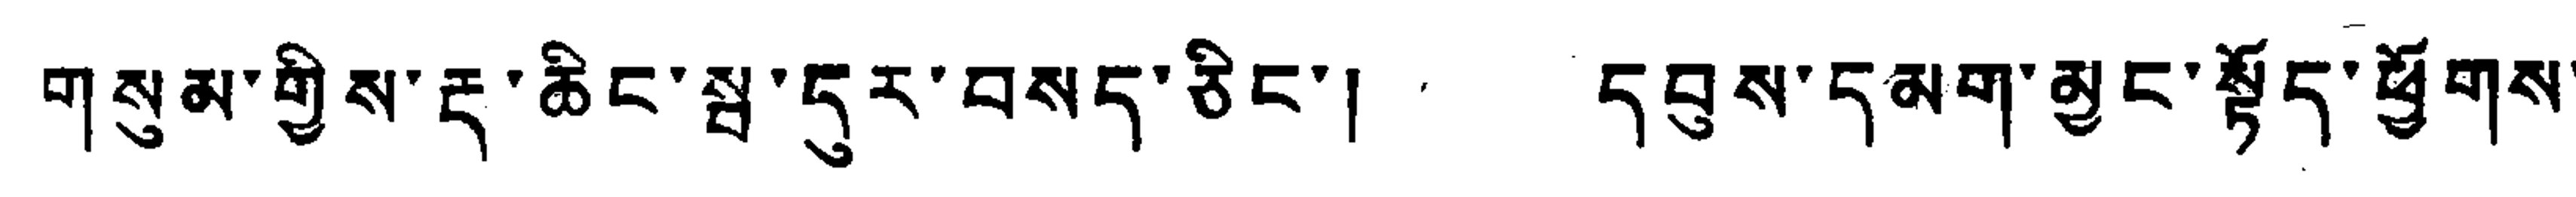གསུམ་གྱིས་རྡ་ཆིང་སྦ་དུར་བསད་ཅིང་། དབུས་དམག་མྱང་སྟོད་ཕྱོགས་
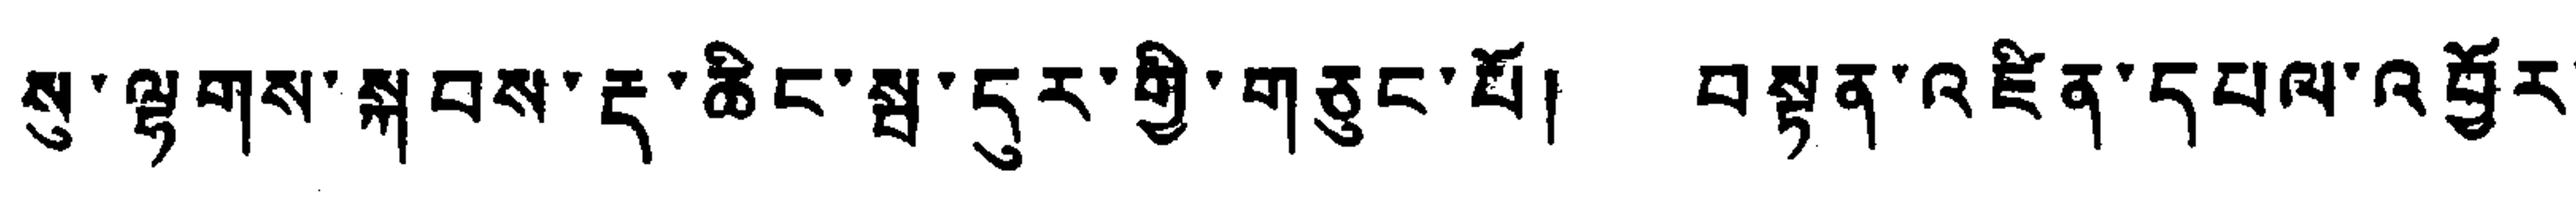སུ་ལྷགས་སྐབས་རྡ་ཆིང་སྦ་དུར་གྱི་གཅུང་པོ། བསྟན་འཛིན་དཔལ་འབྱོར་
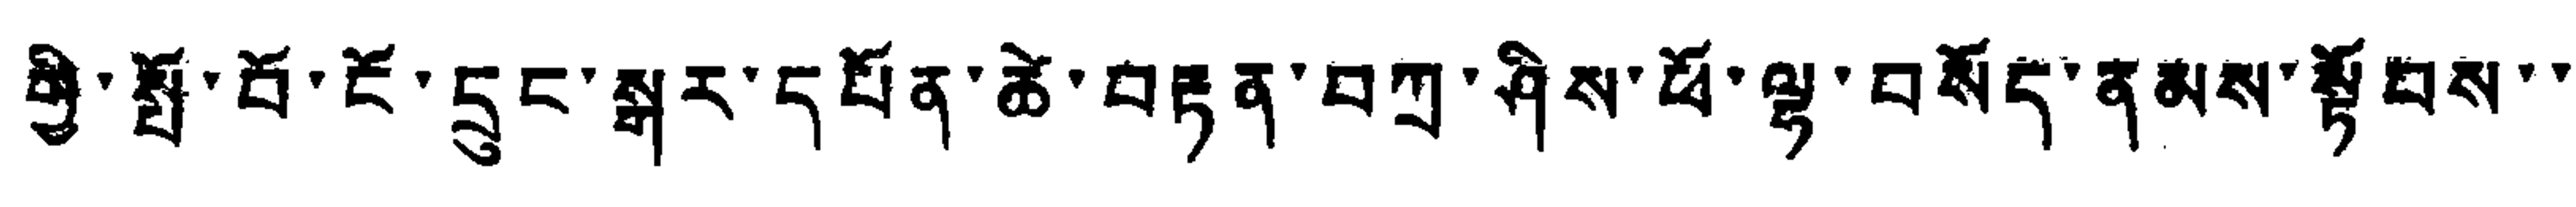གྱི་སྤོ་བོ་ངོ་དྲུང་སྒར་དཔོན་ཚེ་བརྟན་བཀྲ་ཤིས་ཕོ་ལྷ་བསོད་ནམས་སྟོབས་་
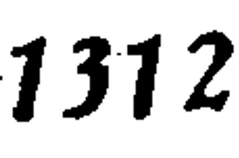1312
